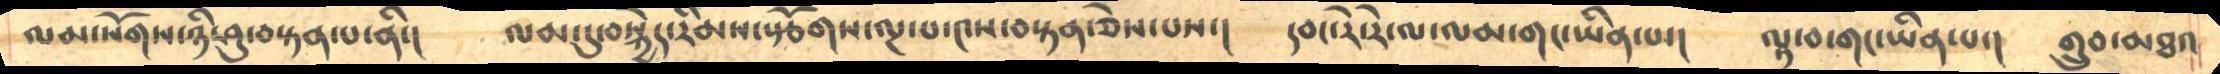ལམ་སོགས་ཉི་ཤུ་བསྟན་པ་ནི་།     ལམ་དུ་བསྐྱེད་རིམས་སྩོགས་ལྔ་པ་༤ས་བསྟན་ཅེས་པས་།    དབང་རེ་རེ་ལ་ལམ་གང་ཡིན་པ་།     ལྟ་བ་གང་ཡིན་པ་།    གྲུབ་མཐའ
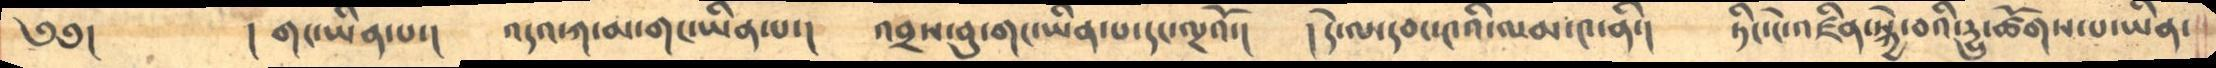༄༅།        །གང་ཡིན་པ་།       འདའ་ཀ་མ་གང་ཡིན་པ་།      འབྲས་བུ་གང་ཡིན་པ་དང་ལྔའོ་།    །དེ་ལ་དབང་༤འི་ལམ་༤་ནི་།    ཏིང་ངེ་འཛིན་སྐྱེ་བའི་དྱུ་ཚོགས་པ་ཡིན་
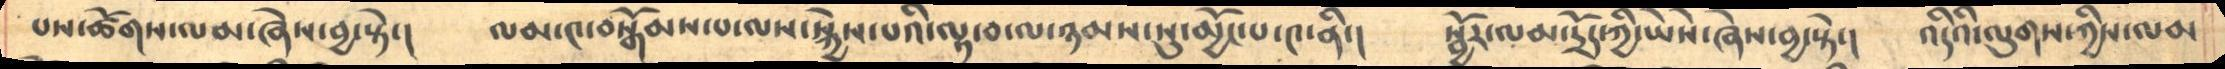པས་ཚོགས་ལམ་ཞེས་བྱ་སྟེ་།     ལམ་༤་བསྒོམས་པ་ལས་སྐྱེས་པའི་ལྟ་བ་ལ་ཉམས་སུ་མྱོང་པ་༤་ནི་།     སྦྱོར་ལམ་དྲོད་ཀྱི་ཡཻས་ཞེས་བྱ་སྟེ་།    འདིའི་ལུགས་ཀྱིས་ལམ
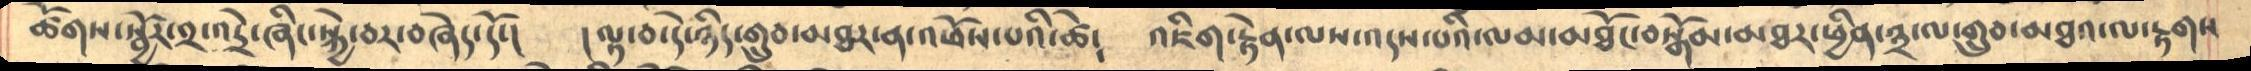ཚོགས་སྦྱོར་༢་འདྲེ་ཞིང་སྐྱེ་བར་བཞེད་དོ་།     །ལྟ་བ་དེ་ཉིད་གྲུབ་མཐར་ན་འཕོས་པའི་ཚེ༴   འཇིག་རྟེན་ལས་འདས་པའི་ལམ་མཐོང་བསྒོམ་མཐར་ཕྱིན་༣་ལ་གྲུབ་མཐའ་ལ་རྟགས
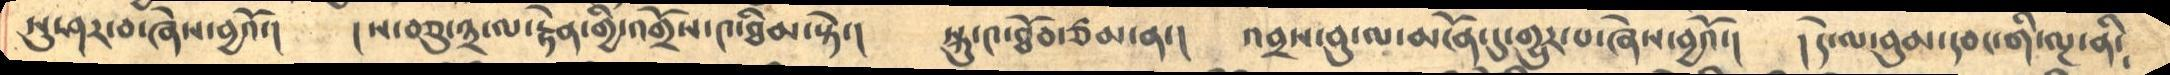སུ་ཤར་བ་ཞེས་བྱའོ་།       །ས་བཅུ་༣་ལ་རྟེན་གྱི་འགྲོས་༤་ཐིམ་སྟེ་།      སྐུ་༤་ཐོབ་ཙམ་ན་།    འབྲས་བུ་ལ་མངོན་དུ་གྱུར་པ་ཞེས་བྱའོ་།     །དེ་ལ་བུམ་དབང་གི་ལྔ་ནི༴
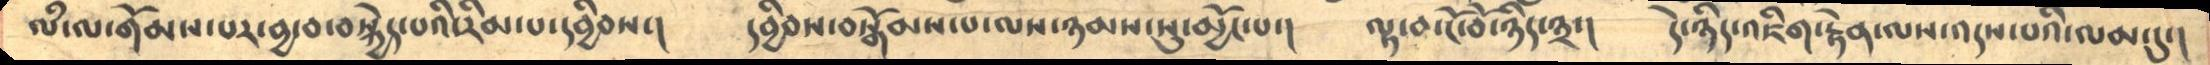ལཾ་ལ་གོམས་པར་བྱ་བ་བསྐྱེད་པའི་རིམ་པ་དབྱིབས་།     དབྱིབས་བསྒོམས་པ་ལས་ཉམས་སུ་མྱོང་པ་།    ལྟ་བ་ངོ་བོ་ཉིད་༣་།     དེ་ཉིད་འཇིག་རྟེན་ལས་འདས་པའི་ལམ་དུ་།
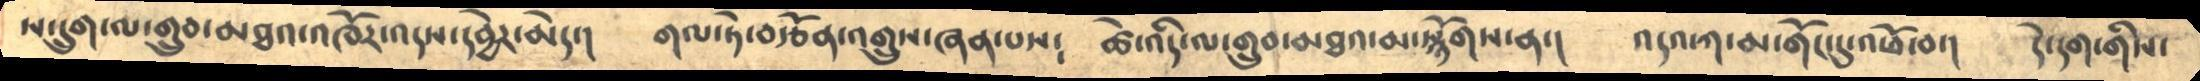ས་དྲུག་ལ་གྲུབ་མཐའ་འཁོར་འདས་དབྱེར་མེད་།     གལ་ཏེ་བརྩོན་འགྲུས་ཞན་པས༴     ཚེ་འདི་ལ་གྲུབ་མཐའ་མ་སྙོགས་ན་།     འདའ་ཀ་མ་གོང་དུ་འཕོ་བ་།       དེ་དག་གིས་
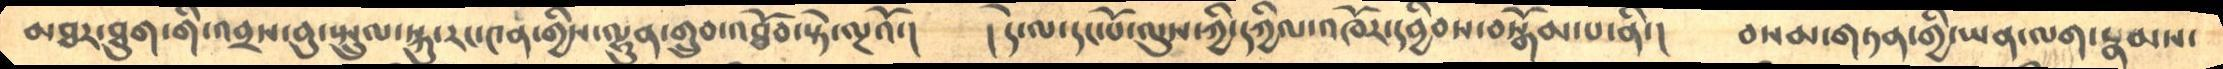མཐར་ཐུག་གི་འབྲས་བུ་སྤྲུལ་སྐུ་རང་༤ན་གྱིས་ལྷུན་གྲུབ་འཐོབ་སྟེ་ལྔའོ་།      །དེ་ལ་དང་པོ་ལུས་ཀྱི་དཀྱིལ་འཁོར་དབྱིབས་བསྒོམ་པ་ནི་།     བསམ་གཏན་གྱི་ཡན་ལག་རྣམས་
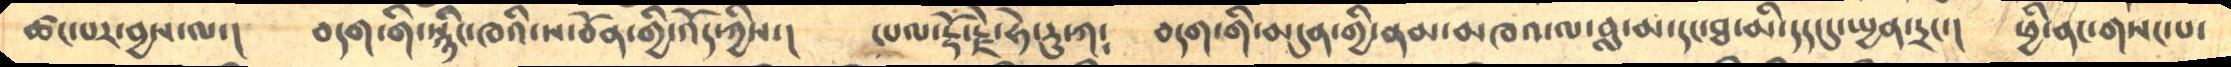ཚང་པར་བྱས་ལ་།     བདག་གི་སྙིང་ཁའི་ས་བོན་གྱི་འོད་ཀྱིས་།    དཔལ་རྡོ་རྗེ་ཧེ་རུ་ཀ༴    བདག་གི་མདུན་གྱི་ནམ་མཁའ་ལ་བླ་མ་དང་ཐ་མི་དད་དུ་སྤྱན་དྲང་།    ཕྱི་ནང་གསང་པ་
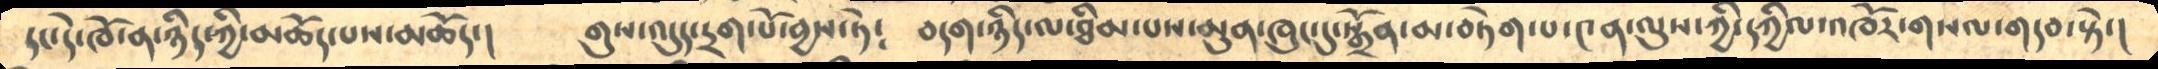དང་དེ་ཁོ་ན་ཉིད་ཀྱི་མཆོད་པས་མཆོད་།      གུས་འདུད་དྲག་པོ་བྱས་ཏེ༴      བདག་ཉིད་ལ་ཐིམ་པས་མུན་ཁུང་དུ་སྒྲོན་མ་བཏེགས་པ་༤ན་ལུས་ཀྱི་དཀྱིལ་འཁོར་གསལ་གདབ་སྟེ་།
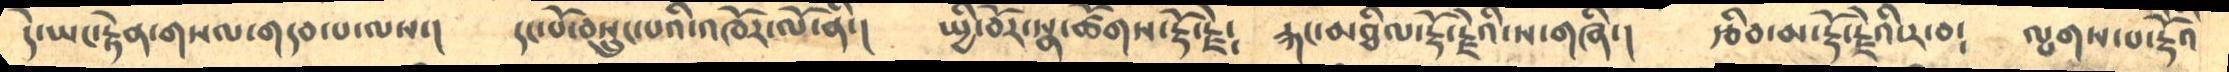དེ་ཡང་རྟེན་གསལ་གདབ་པ་ལས་།     དང་པོ་བསྲུང་པའི་འཁོར་ལོ་ནི་།     སྤྱི་བོར་སྣ་ཚོགས་རྡོ་རྗེ༴    རྐང་མཐིལ་རྡོ་རྗེའི་ས་གཞི་།    རྩིབ་མ་རྡོ་རྗེའི་ར་བ༴    ལྤགས་པ་རྡོེའི
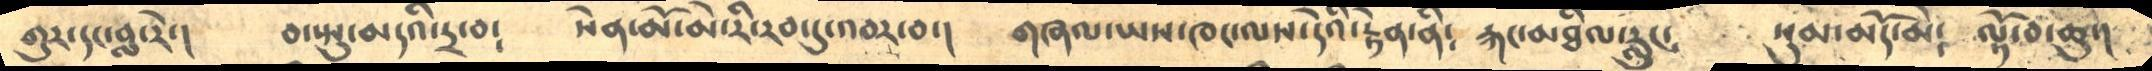གུར་དང་བླ་རེ་།      བ་སྤུ་མདའི་དྲ་བ༴      སེན་མོ་མེ་རི་རབ་དུ་འབར་བ་།     གཞལ་ཡས་ཁང་ལས་དེའི་རྟེན་ནི༴  རྐང་མཐིལ་རླུང༴      སུམ་མདོ་མེ༴     ལྟོ་བ་ཆུ་།
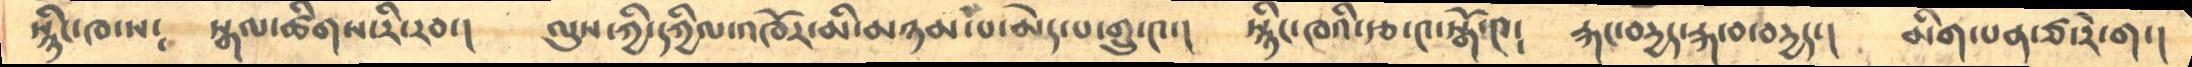སྙིང་ཁ་ས༴      སྒལ་ཚིགས་རི་རབ་།      ལུས་ཀྱི་དཀྱིལ་འཁོར་མི་མཉམ་པ་མེད་པ་གྲུ་༤་།      སྙིང་ཁའི་རྩ་༤་སྒོ་༤༴     རྐང་བདྱད་རྐ་བ་བདྱད་།    མིག་པན་ཙ་རེ་ག་།
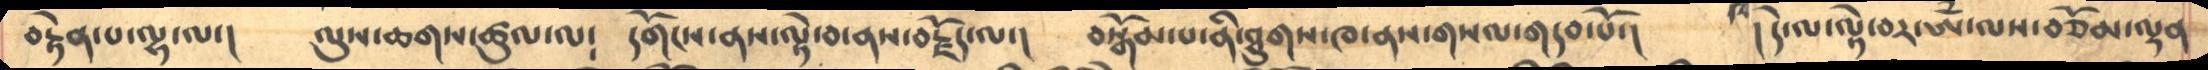བརྟེན་པ་ལྷ་ལ་།     ལུས་ཆགས་ཚུལ་ལ༴      དགོངས་ནས་ལྟེ་བ་ནས་བརྗོད་ལ་།     བསྒོམ་པ་ནི་ཐུགས་ཁ་ནས་གསལ་གདབ་པོ་།    །དེ་ལ་ལྡེ་བར་ཨོཾ་ལས་བཅོམ་ལྡན
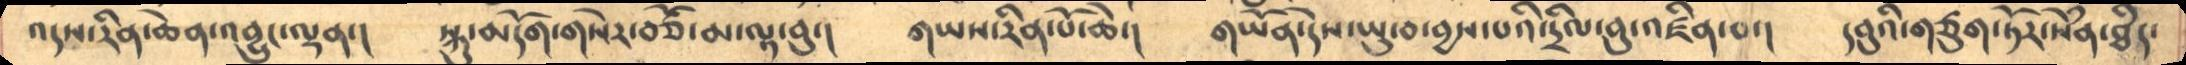འདས་རིན་ཆེན་འབྱུང་ལྡན་།     སྐུ་མདོག་གསེར་བཙོ་མ་ལྟ་བུ་།     གཡས་རིན་པོ་ཆེ་།     གཡོན་དེས་ཡུ་བ་བྱས་པའི་དྲིལ་བུ་འཛིན་པ་།     དབུའི་གཙུག་ཏོར་སེཾན་ཐཾད་
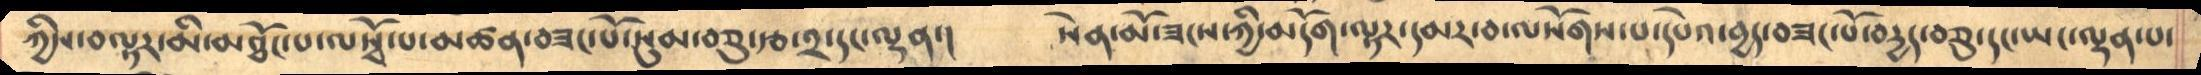ཀྱིས་བལྟར་མི་མཐོང་པ་ལ་ལསྭོ་པ་མཚན་བཟང་པོ་སུམ་བཅུ་རྩ་༢་དང་ལྡན་།    སེན་མོ་ཟངས་ཀྱི་མདོག་ལྟར་དམར་བ་ལསོགས་པ་དཔེའ་བྱད་བཟང་པོ་བདྱད་བཅུ་དང་ཡང་ལྡན་པ་
